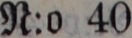N:o 40
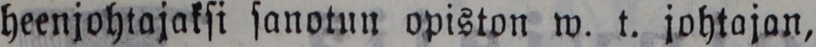heenjohtajaksi sanotun opiston w. t. johtajan,
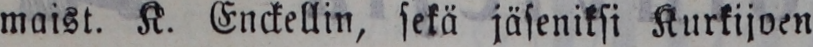maist. K. Enckellin, sekä jäseniksi Kurkijoen
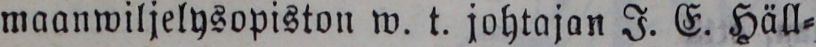maanwiljelysopiston w. t. johtajan J. E. Häll-
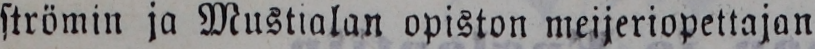strömin ja Mustialan opiston meijeriopettajan
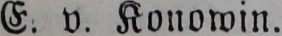E. v. Konowin.
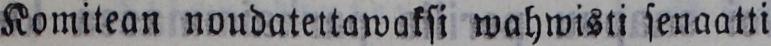Komitean noudatettawaksi wahwisti senaatti
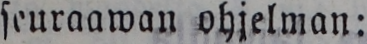seuraawan ohjelman:
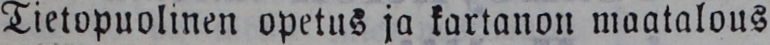Tietopuolinen opetus ja kartanon maatalous
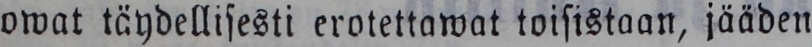owat täydellisesti erotettawat toisistaan, jääden
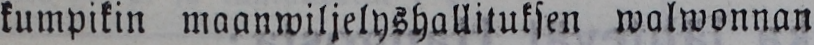kumpikin maanwiljelyshallituksen walwonnan
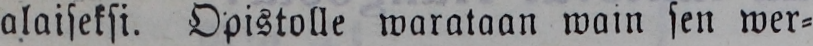alaiseksi. Opistolle warataan wain sen wer-
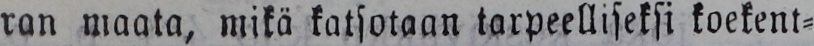ran maata, mikä katsotaan tarpeelliseksi koekent-
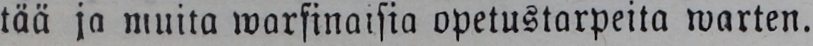tää ja muita warsinaisia opetustarpeita warten.
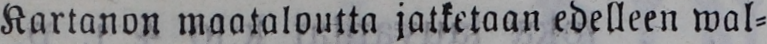Kartanon maataloutta jatketaan edelleen wal-
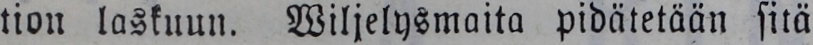tion laskuun. Wiljelysmaita pidätetään sitä
